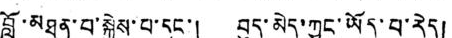བློ་མཐུན་བ་སྐྱེས་པ་དང་། བུད་མེད་ཀྱང་ཡོད་པ་རེད།
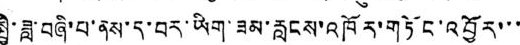སྤྱི་ཟླ་བཞི་པ་ནས་ད་བར་ཡིག་ཟམ་རླངས་འཁོར་གཏོང་འབྱོར་་་
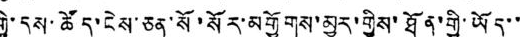གྱི་དུས་ཚོད་ངེས་ཅན་སོ་སོར་མགྱོགས་མྱུར་གྱིས་ཐོན་གྱི་ཡོད་་
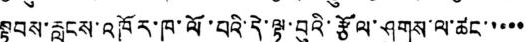སྟབས་རླངས་འཁོར་ཁ་ལོ་པའི་དེ་ལྟ་བུའི་རྩོལ་ཤུགས་ལ་ཚང་་་་་
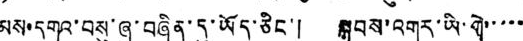མས་དགའ་བསུ་ཞུ་བཞིན་དུ་ཡོད་ཅིང་། སྐབས་འགར་ཡི་གེ་་་་་
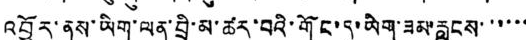འབྱོར་ནས་ཡིག་ལན་བྲི་མ་ཚར་བའི་གོང་དུ་ཡིག་ཟམ་རླངས་་་་་་
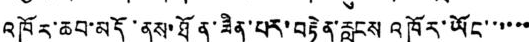འཁོར་ཆབ་མདོ་ནས་ཐོན་ཟིན་པར་བརྟེན་རླངས འཁོར་ཡོང་་་་་་
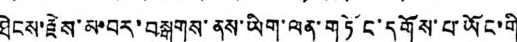ཐེངས་རྗེས་མ་བར་བསྒུགས་ནས་ཡིག་ལན་གཏོང་དགོས་པ་ཡོང་གི་
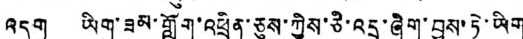འདུག ཡིག་ཟམ་གློག་འཕྲིན་ཅུས་ཀྱིས་ཅི་འདྲ་ཞིག་བྱས་ཏེ་ཡིག་
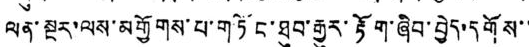ལན་སྔར་ལས་མགྱོགས་པ་གཏོང་ཐུབ་རྒྱུར་རྟོག་ཞིབ་བྱེད་དགོས་་
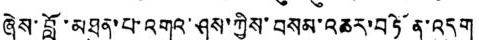ཞེས་བློ་མཐུན་པ་འགའ་ཤས་ཀྱིས་བསམ་འཆར་བཏོན་འདུག
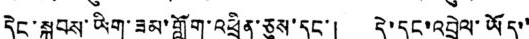དེང་སྐབས་ཡིག་ཟམ་གློག་འཕྲིན་ཅུས་དང་། དེ་དང་འབྲེལ་ཡོད་་
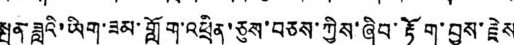སྤུན་ཟླའི་ཡིག་ཟམ་གློག་འཕྲིན་ཅུས་བཅས་ཀྱིས་ཞིབ་རྟོག་བྱས་རྗེས་
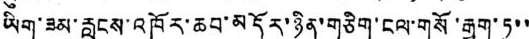ཡིག་ཟམ་རླངས་འཁོར་ཆབ་མདོར་ཉིན་གཅིག་ངལ་གསོ་རྒྱག་ཏུ་་
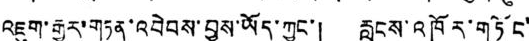འཇུག་རྒྱུར་གཏན་འབེབས་བྱས་ཡོད་ཀྱང་། རླངས་འཁོར་གཏོང་
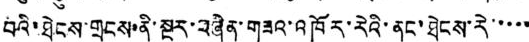པའི་ཐེངས་གྲངས་ནི་སྔར་བཞིན་གཟའ་འཁོར་རེའི་ནང་ཐེངས་རེ་་་་་
